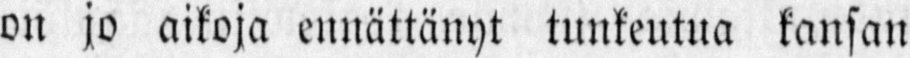on jo aikoja ennättänyt tunkeutua kansan
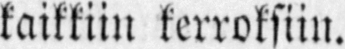kaikkiin kerroksiin.
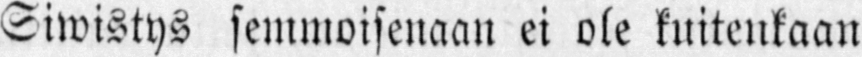tiwistys semmoisenaan ei ole kuitenkaan
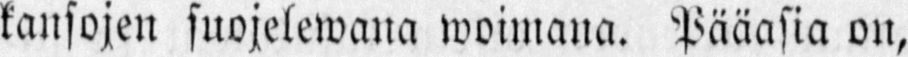kansojen suojelewana woimana. Pääasia on,
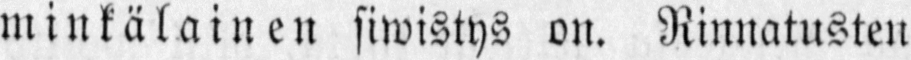minkälainen siwistys on. Rinnatusten
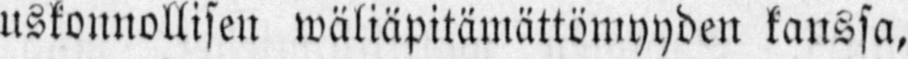uskonnollisen wäliäpitämättömyyden kanssa,
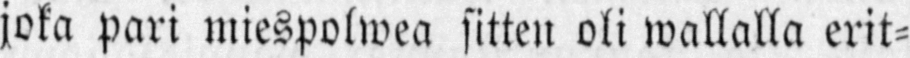joka pari miespolwea sitten oli wallalla erit-
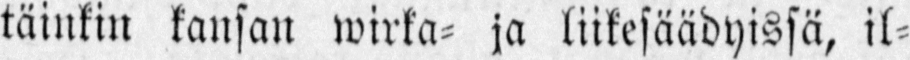täinkin kansan wirka- ja liikesäädyissä, il-
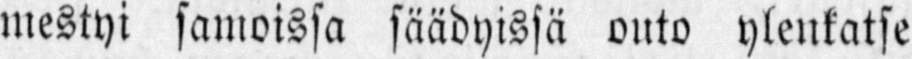mestyi samoissa säädyissä outo ylenkatse
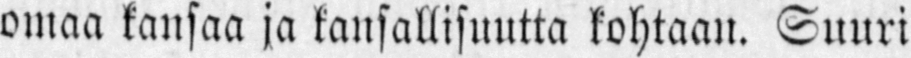omaa kansaa ja kansallisuutta kohtaan. Suuri
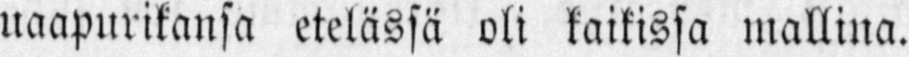uaapurikansa etelässä oli kaikissa mallina.
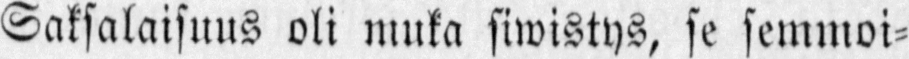Saksalaisuus oli muka siwistys, se semmoi-
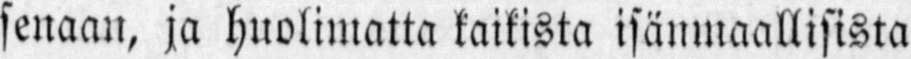senaan, ja huolimatta kaikista isänmaallisista
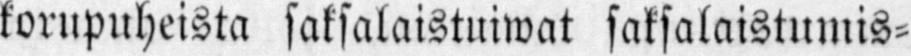korupuheista saksalaistuiwat saksalaistumis-
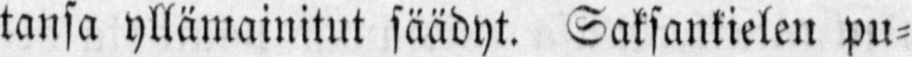tansa yllämainitut säädyt. Saksankielen pu-
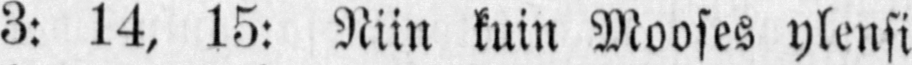3: 14, 15: Niin kuin Mooses ylensi
